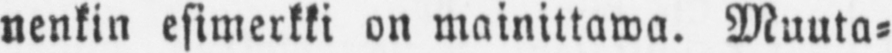nenkin esimerkki on mainittawa. Muuta-
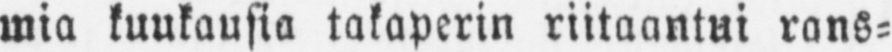mia kuukausia takaperin riitaantui rans-
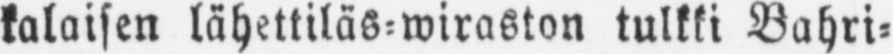kalaisen lähettiläs-wiraston tulkki Bahri-
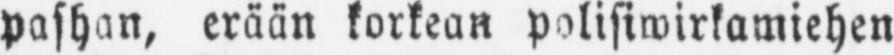pashan, erään korkean polisiwirkamiehen
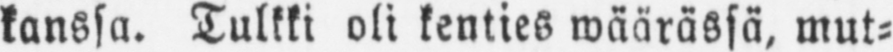kanssa. Tulkki oli kenties wäärässä, mut-
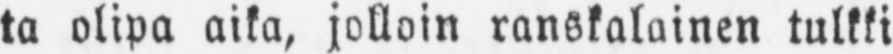ta olipa aika, jolloin ranskalainen tulkki
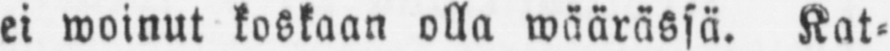ei woinut koskaan olla wäärässä. Kat-
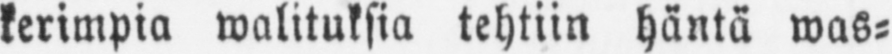kerimpia walituksia tehtiin häntä was-
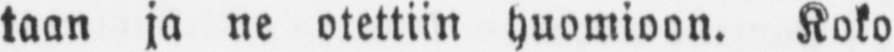taan ja ne otettiin huomioon. Koko
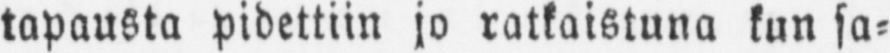tapausta pidettiin jo ratkaistuna kun sa-
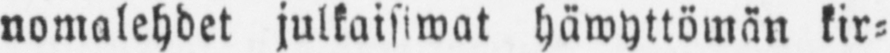nomalehdet julkaisiwat häwyttömän kir-
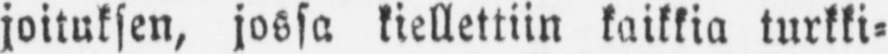joituksen, jossa kiellettiin kaikkia turkki-
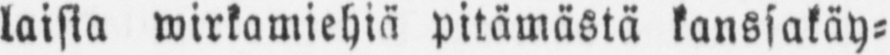laisia wirkamiehiä pitämästä kanssakäy-
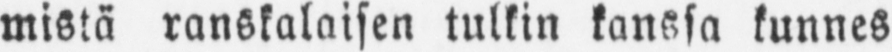mistä ranskalaisen tulkin kanssa kunnes
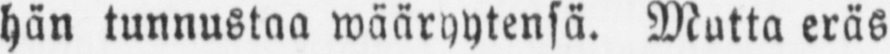hän tunnustaa wääryytensä. Mutta eräs
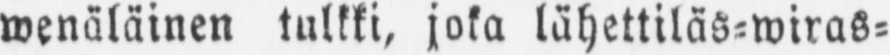wenäläinen tulkki, joka lähettiläs-wiras-
